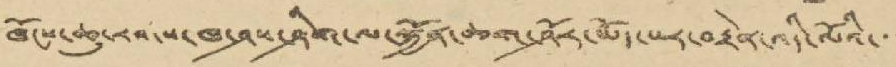ཁོངས་ཆུ་རབ་ས་ཁ་ཤས་ཤིག་ལ་སྐྱོན་ཆག་ཤོར་ཡོད་པར་བརྟེན་འདི་ལོའི་་་
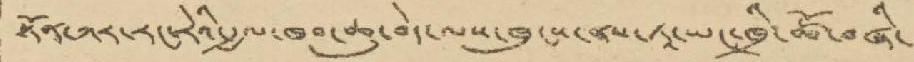སྟོན་ཀར་རང་རེའི་རྒྱལ་ཁབ་ཆུ་བདེ་ལས་ཁུངས་ནས་ཏཱ་ཡང་ཁྲི་ཚོ་བཞི་
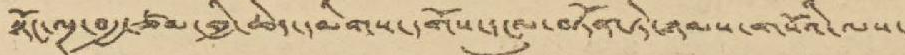སྟོང་ལྔ་བརྒྱ་ཙམ་གྱི་ཆེད་དམིགས་དགོས་དངུལ་བཏོན་ཏེ་ཉམས་གསོའི་ལས་
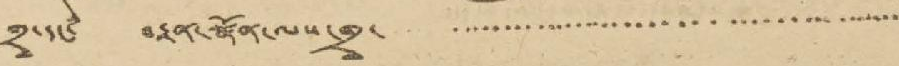གྲྭ་དང་ བརྟན་སྣོན་ལས་གྲྭ་ ་་་་་་་་་་་་་་་་་་་་་་་་་་་་་་་་་་་་་་་་་་
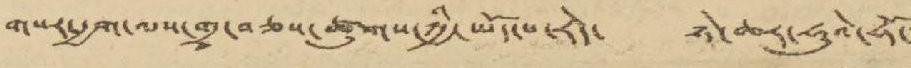གསར་རྒྱག་ལས་གྲྭ་བཅས་ཚུགས་ཀྱི་ཡོད་པ་རེད་ ཉེ་ཆར་ཧུའེ་ཧོ་
